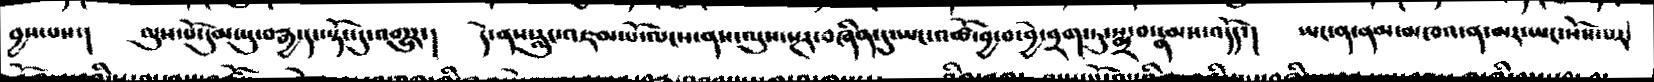བྱས་པས་།  ལུས་པོ་དུམ་པུ་བརྒྱ་དང་སྟོང་དུ་འགྱུར་།  དེ་ནས་རླུང་འཇམ་པོ་ལངས་ནས་ལུས་སྔར་བཞིན་དུ་ཡང་འཚོ་བྱ་བ་བྱེ་བྲག་ཏུ་སྨྲ་བ་རྣམས་འདོད་།  ཡང་ན་ནམ་མཁའ་ན་མར་ཡང་སོས་པར་
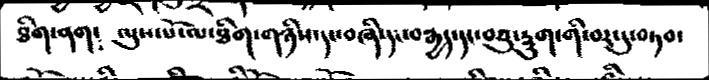ཐིག་ནག༴  ལུས་པོ་ལ་ཐིག་གཉིས་དང་བཞི་དང་བརྒྱད་དང་བཅུ་དྲུག་གི་བར་དུ་བཏབ་
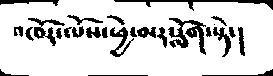འཁོར་ལོས་ཕྱེ་མར་རློག་སྟེ་།
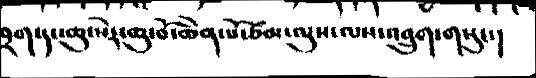བྲག་དང་ཆུ་སེར་ཆུ་བོ་ཆེན་པོ་ཙམ་ལུས་ལས་འབྲུག་གསུང་།
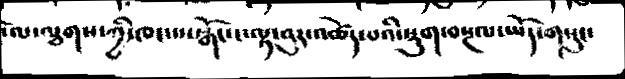་ལ་ལྕགས་ཀྱི་ཁང་པ་སྒོང་ང་ལྟ་བུར་འཚེད་པའི་སྡུག་བསྔལ་ཡོད་གསུང་
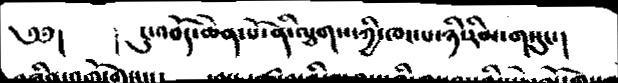༄༅།   ། ངུ་འབོད་ཆེན་པོ་ནི་ལྕགས་ཀྱི་ཁང་པ་ཉི་རིམ་གསུང་།
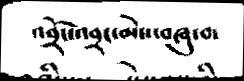འབྲོང་འབྲང་མེས་བཞུ་བ་
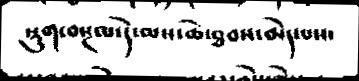སྡུག་བསྔལ་དེ་མས་ཆེ་ཐབས་མེད་པས་
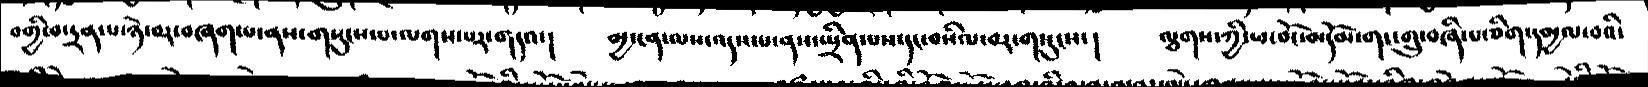བགྱི་བ་དྲན་པ་ཉེ་བར་བཞག་པ་ནས་གསུངས་པ་ལགས་པར་གདའ་།  མྱ་ངན་ལས་འདས་པ་ནས་སྤྲིན་པས་དང་བསིལ་བར་གསུངས་།  ལྕགས་ཀྱི་ཕ་བོང་མདོམ་གང་གྲུ་བཞི་པ་ཅིག་དམྱལ་བའི་
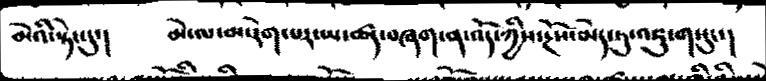མེའི་སྟེང་དུ་།  མེ་ལ་མ་རེག་པར་ཡ་ཚད་བཞག་ན་འོད་ཀྱིས་རྔོས་མེད་ཏུ་འཇུ་གསུང་།
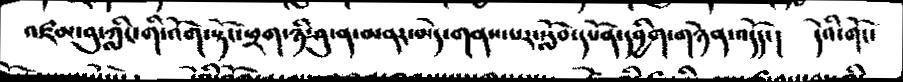འཛམ་བུ་ཀླིང་གི་འོག་སྟོང་ཕྲག་ཉི་ཤུ་ན་མནར་མེད་གནས་པར་སློབ་དཔོན་དབྱིག་གཉེན་འདོད་།  དེའི་གོང་
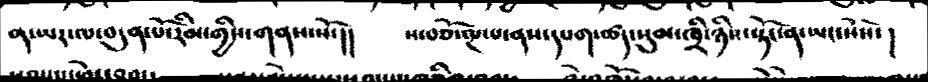ན་ཡར་ལ་བདུན་པོ་རིམ་གྱིས་གནས་སོ་།།  ས་བཅོ་ལྔ་པ་ནས་དཔག་ཚད་སུམ་ཁྲི་ཉིས་སྟོང་ན་ཡང་སེསེ་ །
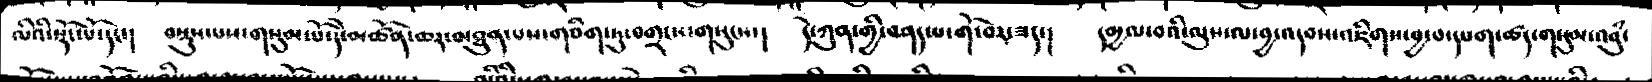ལིའི་སྡོང་པོ་དང་།  བསྡུས་པས་གསུམ་པོ་དེ་མཚོན་ཆར་མཐུན་པས་གཅིག་ཏུ་བགྲངས་གསུངས་།  དེ་ཀུན་གྱི་བཤད་པ་གོ་བར་ཟད་།  དམྱལ་བའི་ལུས་ལ་བྱ་འདབས་འཇིགས་བྱ་བ་དཔག་ཚད་གསུམ་འབུཾ་
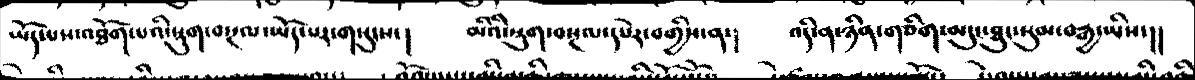ཡོད་པས་འཐོག་པའི་སྡུག་བསྔལ་ཡོད་པར་གསུངས་།  མིའི་སྡུག་བསྔལ་དཔེར་བགྱིས་ན་།  འདི་ན་ཉིན་གཅིག་མདུང་ཐུང་སུམ་བརྒྱ་ཡིས་།།
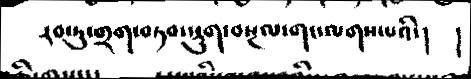རབ་ཏུ་གྲག་བཏབ་སྡུག་བསྔལ་གང་ལགས་པའི་།   །
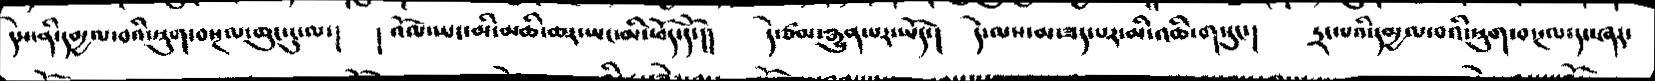དེས་ནི་དམྱལ་བའི་སྡུག་བསྔལ་ཆུང་དུ་ལ་།  ། འོལ་ཡང་མི་མཆི་ཆར་ཡང་མི་ཕོད་དོ་།། དེ་ཙམ་རྒྱུན་པར་ཡོད་།  དེ་ལས་མ་ཟད་པར་མི་འཆི་གསུང་།  དྲང་པའི་དམྱལ་བའི་སྡུག་བསྔལ་དང་ཞར་
